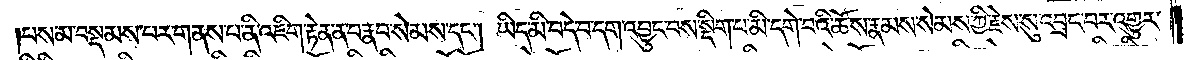།པས་མ་བསྡམས་པར་གནས་པ་ནི་འཇིག་རྟེན་ན་བརྣབ་སེམས་དང༌། ཡིད་མི་བདེ་བ་དག་འབྱུང་བས་སྡིག་པ་མི་དགེ་བའི་ཆོས་རྣམས་སེམས་ཀྱི་རྗེས་སུ་འབྲང་བར་འགྱུར་
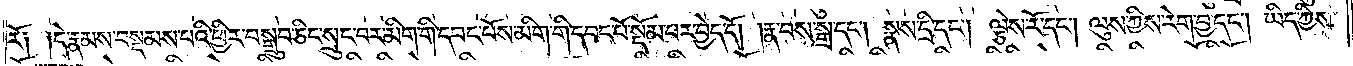རོ། །དེ་རྣམས་བསྡམས་པའི་ཕྱིར་བསྒྲུབ་ཅིང་སྲུང་བར་མིག་གི་དབང་པོས་མིག་གི་དབང་པོ་སྡོམ་པར་བྱེད་དོ། །རྣ་བས་སྒྲ་དང༌། སྣས་དྲི་དང༌། ལྕེས་རོ་དང༌། ལུས་ཀྱིས་རེག་བྱ་དང༌། ཡིད་ཀྱིས་
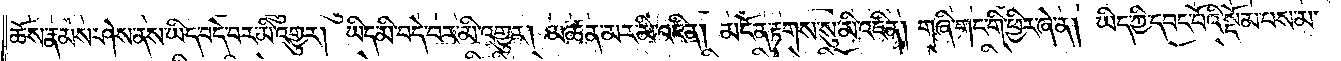ཆོས་རྣམས་ཤེས་ནས་ཡིད་བདེ་བར་མི་འགྱུར། ཡིད་མི་བདེ་བར་མི་འགྱུར། མཚན་མར་མི་འཛིན། མངོན་རྟགས་སུ་མི་འཛིན། གཞི་གང་གི་ཕྱིར་ཞེ་ན། ཡིད་ཀྱི་དབང་པོའི་སྡོམ་པས་མ་
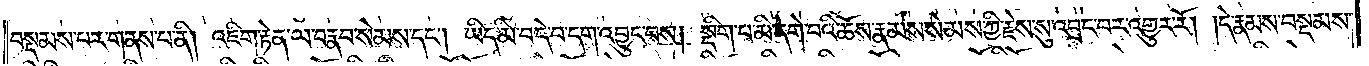བསྡམས་པར་གནས་པ་ནི། འཇིག་རྟེན་ལ་བརྣབ་སེམས་དང༌། ཡིད་མི་བདེ་བ་དག་འབྱུང་བས། སྡིག་པ་མི་དགེ་བའི་ཆོས་རྣམས་སེམས་ཀྱི་རྗེས་སུ་འབྲང་བར་འགྱུར་རོ། །དེ་རྣམས་བསྡམས་
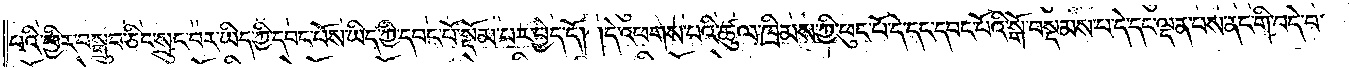པའི་ཕྱིར་བསྒྲུབ་ཅིང་སྲུང་བར་ཡིད་ཀྱི་དབང་པོས་ཡིད་ཀྱི་དབང་པོ་སྡོམ་པར་བྱེད་དོ། །དེ་འཕགས་པའི་ཚུལ་ཁྲིམས་ཀྱི་ཕུང་པོ་དེ་དང་དབང་པོའི་སྒོ་བསྡམས་པ་དེ་དང་ལྡན་པས་ནང་གི་བདེ་བ་
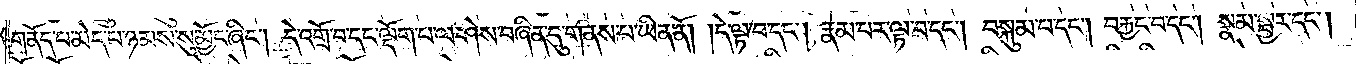གནོད་པ་མེད་པ་ཉམས་སུ་མྱོང་ཞིང༌། དེ་འགྲོ་བ་དང་ལྡོག་པ་ལ་ཤེས་བཞིན་དུ་གནས་པ་ཡིན་ནོ། །དེ་ལྟ་བ་དང༌། རྣམ་པར་ལྟ་བ་དང༌། བསྐུམ་པ་དང༌། བརྐྱང་བ་དང༌། སྣམ་སྦྱར་དང༌།
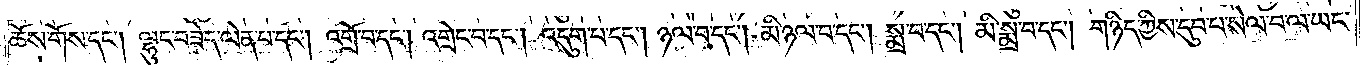ཆོས་གོས་དང༌། ལྷུང་བཟེད་ལེན་པ་དང༌། འགྲོ་བ་དང༌། འགྲེང་བ་དང༌། འདུག་པ་དང༌། ཉལ་བ་དང༌། མི་ཉལ་བ་དང༌། སྨྲ་བ་དང༌། མི་སྨྲ་བ་དང༌། གཉིད་ཀྱིས་དུབ་པ་སེལ་བ་ལ་ཡང་
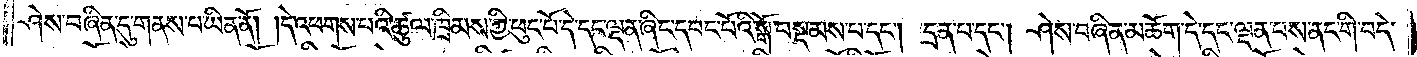ཤེས་བཞིན་དུ་གནས་པ་ཡིན་ནོ། །དེ་འཕགས་པའི་ཚུལ་ཁྲིམས་ཀྱི་ཕུང་པོ་དེ་དང་ལྡན་ཞིང་དབང་པོའི་སྒོ་བསྡམས་པ་དང༌། དྲན་པ་དང༌། ཤེས་བཞིན་མཆོག་དེ་དང་ལྡན་པས་ནང་གི་བདེ་
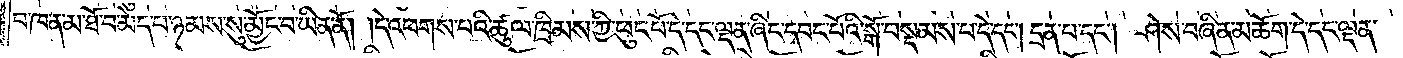བ་ཁ་ན་མ་ཐོ་བ་མེད་པ་ཉམས་སུ་མྱོང་བ་ཡིན་ནོ། །དེ་འཕགས་པའི་ཚུལ་ཁྲིམས་ཀྱི་ཕུང་པོ་དེ་དང་ལྡན་ཞིང་དབང་པོའི་སྒོ་བསྡམས་པ་དེ་དང༌། དྲན་པ་དང༌། ཤེས་བཞིན་མཆོག་དེ་དང་ལྡན་
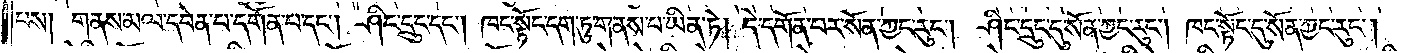པས། གནས་མལ་དབེན་པ་དགོན་པ་དང༌། ཤིང་དྲུང་དང༌། ཁང་སྟོང་དག་ཏུ་གནས་པ་ཡིན་ཏེ། དེ་དགོན་པར་སོན་ཀྱང་རུང༌། ཤིང་དྲུང་དུ་སོན་ཀྱང་རུང༌། ཁང་སྟོང་དུ་སོན་ཀྱང་རུང༌།
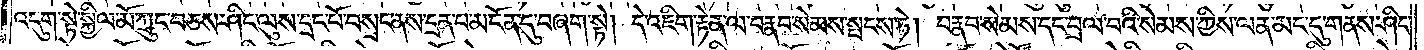འདུག་སྟེ་སྐྱིལ་མོ་ཀྲུང་བཅས་ཤིང་ལུས་དྲང་པོ་བསྲང་ནས་དྲན་པ་མངོན་དུ་བཞག་སྟེ། དེ་འཇིག་རྟེན་ལ་བརྣབ་སེམས་སྤངས་ཏེ། བརྣབ་སེམས་དང་བྲལ་བའི་སེམས་ཀྱིས་ལན་མང་དུ་གནས་ཤིང་
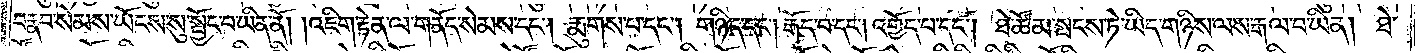བརྣབ་སེམས་ཡོངས་སུ་སྦྱོང་བ་ཡིན་ནོ། །འཇིག་རྟེན་ལ་གནོད་སེམས་དང༌། རྨུགས་པ་དང༌། གཉིད་དང༌། རྒོད་པ་དང༌། འགྱོད་པ་དང༌། ཐེ་ཚོམ་སྤངས་ཏེ་ཡིད་གཉིས་ལས་རྒལ་བ་ཡིན། ཐེ་
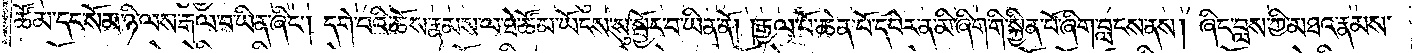ཚོམ་དང་སོམ་ཉི་ལས་རྒལ་བ་ཡིན་ཞིང༌། དགེ་བའི་ཆོས་རྣམས་ལ་ཐེ་ཚོམ་ཡོངས་སུ་སྦྱོང་བ་ཡིན་ནོ། །རྒྱལ་པོ་ཆེན་པོ་དཔེར་ན་མི་ཞིག་གི་སྐྱིན་པོ་ཞིག་བླངས་ནས། ཞིང་བླས་ཀྱི་མཐའ་རྣམས་
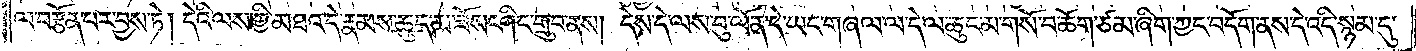ལ་བརྩོན་པར་བྱས་ཏེ། དེའི་ལས་ཀྱི་མཐའ་དེ་རྣམས་ཆུད་མ་ཟོས་ཤིང་གྲུབ་ནས། དེས་དེ་ལས་བུ་ལོན་དེ་ཡང་གཞལ་ལ་དེ་ལ་ཆུང་མ་གསོ་བ་ཆོག་ཙམ་ཞིག་ཀྱང་བདོག་ནས་དེ་འདི་སྙམ་དུ་
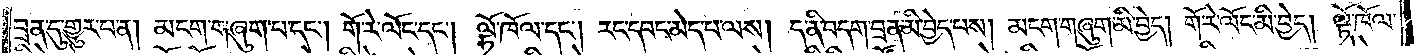བྲན་དུ་གྱུར་པ་ན། མངག་གཞུག་པ་དང༌། གོ་རེ་ལོང་དང༌། ལྟོ་ཁོལ་དང༌། རང་དབང་མེད་པ་ལས། ད་ནི་བདག་བྲན་མི་བྱེད་པས། མངག་གཞུག་མི་བྱེད། གོ་རེ་ལོང་མི་བྱེད། ལྟོ་ཁོལ་
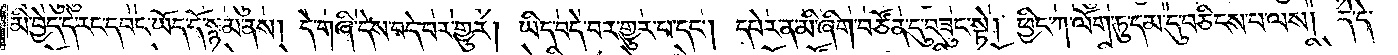མི་བྱེད་དེ་རང་དབང་ཡོད་དོ་སྙམ་ནས། དེ་གཞི་དེས་བདེ་བར་གྱུར། ཡིད་བདེ་བར་གྱུར་པ་དང༌། དཔེར་ན་མི་ཞིག་བཙོན་དུ་བཟུང་སྟེ། ཕྱིང་ཀ་ལོག་ཏུ་དམ་དུ་བཅིངས་པ་ལས། དེ་དེ་
